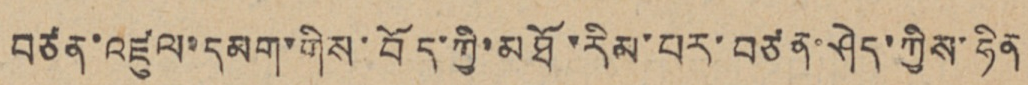བཙན་འཛུལ་དམག་གིས་བོད་ཀྱི་མཐོ་རིམ་པར་བཙན་ཤེད་ཀྱིས་ཧིན
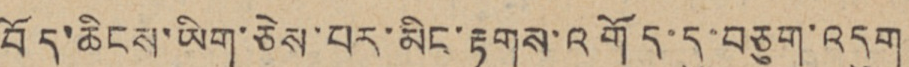བོད་ཆིངས་ཡིག་ཅེས་པར་མིང་རྟགས་འགོད་དུ་བཅུག་འདུག
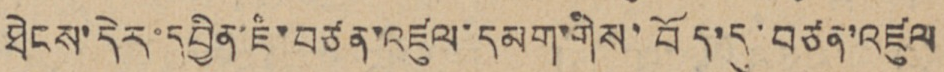ཐེངས་དེར་དབྱིན་ཇི་བཙན་འཛུལ་དམག་གིས་བོད་དུ་བཙན་འཛུལ
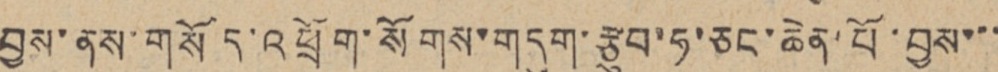བྱས་ནས་གསོད་འཕྲོག་སོགས་གདུག་རྩུབ་ཧ་ཅང་ཆེན་པོ་བྱས་་་
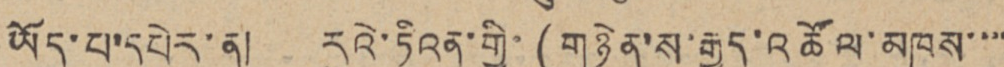ཡོད་པ་དཔེར་ན། རུའེ་ཏིའན་གྱི་(གཉེན་ས་རྒྱུད་འཚོལ་མཁས་་་་
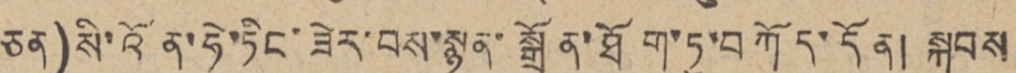ཅན)སི་འོན་ཧེ་ཏིང་ཟེར་བས་སྙན་སྒྲོན་ཐོག་ཏུ་བཀོད་དོན། སྐབས
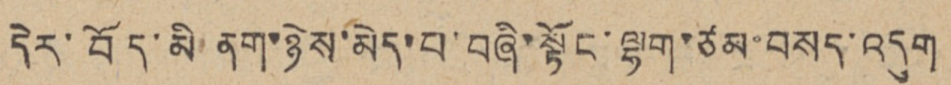དེར་བོད་མི་ནག་ཉེས་མེད་པ་བཞི་སྟོང་ལྷག་ཙམ་བསད་འདུག
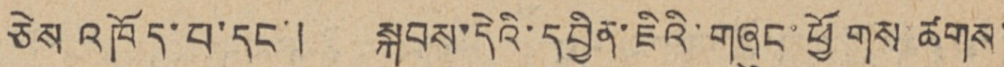ཅེས འཁོད་པ་དང་། སྐབས་དེའི་དབྱིན་ཇིའི་གཞུང་ཕྱོགས་ཚགས་
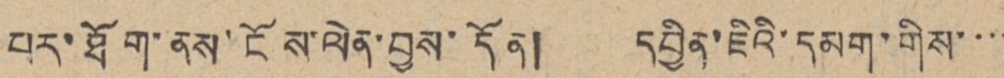པར་ཐོག་ནས་ངོས་ལེན་བྱས་དོན། དབྱིན་ཇིའི་དམག་གིས་་་་
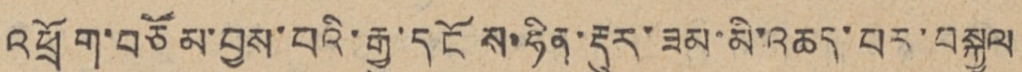འཕྲོག་བཅོམ་བྱས་པའི་རྒྱུ་དངོས་ཧིན་རྡུར་ཟམ་མི་འཆད་པར་བསྐྱལ
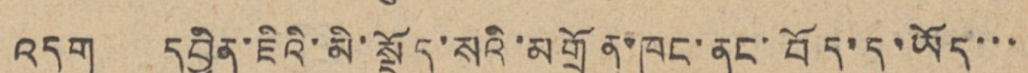འདུག དབྱིན་ཇིའི་མི་སྡོད་སའི་མགྲོན་ཁང་ནང་བོད་དུ་ཡོད་་་
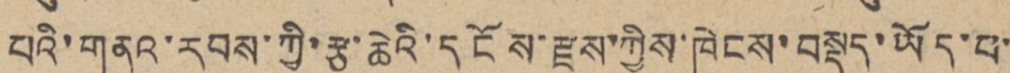པའི་གནའ་རབས་ཀྱི་རྩ་ཆེའི་དངོས་རྫས་ཀྱིས་ཁེངས་བསྡད་ཡོད་པ་
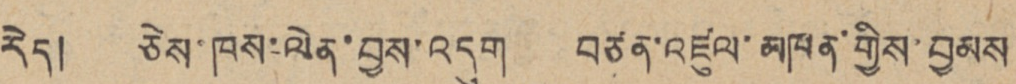རེད། ཅེས་ཁས་ལེན་བྱས་འདུག བཙན་འཛུལ་མཁན་གྱིས་བྱམས
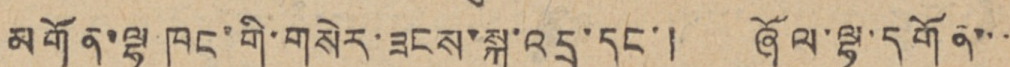མགོན་ལྷ ཁང་གི་གསེར་ཟངས་སྐུ་འདྲ་དང་། ཞོལ་ལྷ་དགོན་་་
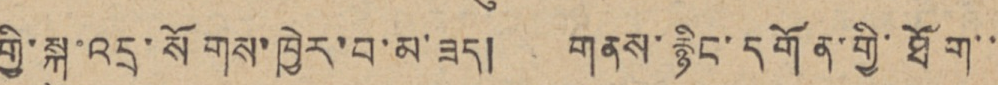གྱི་སྐུ་འདྲ་སོགས་ཁྱེར་བ་མ་ཟད། གནས་རྙིང་དགོན་གྱི་ཐོག་་
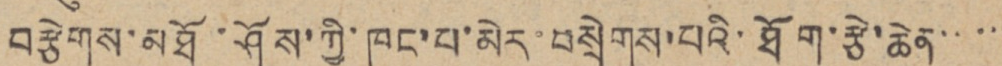བརྩེགས་མཐོ་ཤོས་ཀྱི་ཁང་པ་མེར་བསྲེགས་པའི་ཐོག་རྩེ་ཆེན་་་་་
